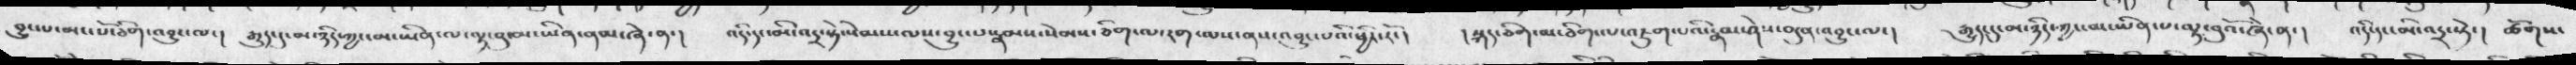བྱུང་པ་མང་པོ་ཐིག་འབྱུང་ལ་།   རྒྱུད་དུ་མ་ཉིད་ཀྱང་མ་ཡིན་ལ་ལྟ་བུ་བས་ཡིན་ནམ་ཞེ་ན་།  འདི་དང་མི་འདྲ་སྟེ་སེམས་ལས་བྱུང་པ་རྣམས་སེམས་ཅིག་ལ་རག་ལས་ནས་འབྱུང་པའི་ཕྱིར་རོ་།   ། སྐད་ཅིག་མ་ཅིག་ལ་འཇུག་པའི་རྣམ་ཤེས་བདུན་འབྱུང་ལ་།    རྒྱུད་དུ་མ་ཉིད་ཀྱང་མ་ཡིན་པ་ལྟ་བུའོ་ཞེ་ན་།   འདི་དང་མི་འདྲ་སྟེ་།   ཚོགས་
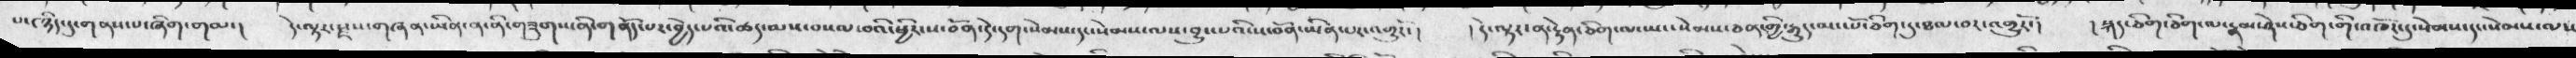པད་ཉིད་དུ་གན་པ་ཞིག་གམ་།   དེ་ལྟར་སྫས་གཞན་ཡིན་ན་ནི་གཟུགས་ནི་གནོད་པར་བྱེད་པའི་ཚད་མས་བསམ་བའི་ཕྱིར་ས་བོན་དེ་དག་སེམས་དང་སེམས་ལས་བྱུང་པའི་ས་བོན་ཡིན་པར་འགྱུར་རོ་།   ། དེ་ལྟར་ན་རྟེན་ཅིག་ལ་ཡང་སེམས་ཅན་གྱི་རྒྱུད་མང་པོ་ཅིག་དུ་ཐལ་བར་འགྱུར་རོ་།   ། སྐད་ཅིག་ཅིག་ལ་རྣམ་ཤེས་ཅིག་གི་འཁོར་དུ་སེམས་དང་སེམས་ལས
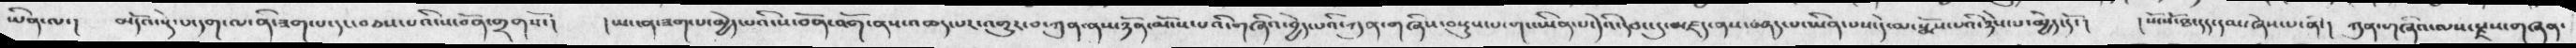ཡིན་ལ་།   མདོ་ཾའ་སྡེ་པ་དག་ལ་ནི་ཟག་པ་དང་བཅས་པའི་ས་བོན་གྲགསོ་།   ། ཡང་ན་ཟག་པ་མྱེད་པའི་ས་བོན་འགོ་ནས་འཆད་པར་འགྱུར་བ་ཀུན་ནས་ཉོན་མོངས་པའི་གཞིའ་བྱེད་པའི་ཀུན་གཞིས་བསྡུས་པ་གང་ཡིན་པ་དེའི་དབང་དུ་མཛད་ནས་བཤད་པ་ཡིན་པས་དེ་མ་སྨོས་པའི་ཉེས་པ་མྱེད་དོ་།   ། སོ་སོ་ཐ་དད་དམ་ཞེས་པ་ནི་།     ཀུན་གཞིའ་ལས་རྫས་གཞན་
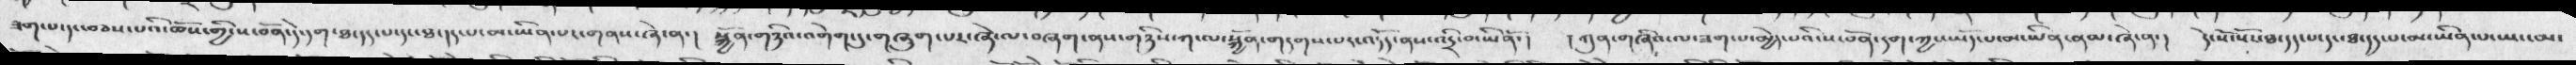ཟག་པ་དང་བཅས་པའི་ཆོས་གྱི་ས་བོན་དེ་དག་ཐ་དད་པ་དང་ཐ་དད་པ་མ་ཡིན་པར་གནས་ཞེས་ན་།   སྐྱོན་གཉིའ་འགེག་དུ་གཞུག་པར་ཞེ་ལ་བཞག་ནས་གཉིས་ཀ་ལ་སྐྱོན་གདགས་པར་འདོད་ནས་འདྲི་བ་ཡིན་ནོ་།   ། ཀུན་གཞིའ་ལ་ཟག་པ་མྱེད་པའི་ས་བོན་དག་ཀྱང་ཡོད་པ་མ་ཡིན་ནམ་ཞེ་ན་།    དེ་སོ་སོར་ཐ་དད་པ་དང་ཐ་དད་པ་མ་ཡིན་པ་ཡང་མ་
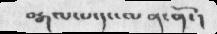བརྒལ་པ་དང་ལན་ནོ་།
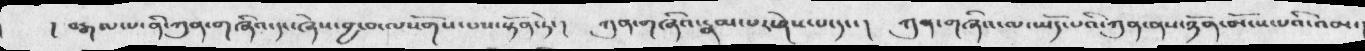།   བརྒལ་པ་ནི་ཀུན་གཞིའ་དང་ཞེས་བྱ་བ་ལསོགས་པས་སྟོན་ཏེ་།   ཀུན་གཞིའ་རྣམ་པར་ཤེས་པ་དང་།  ཀུན་གཞིའ་ལ་ཡོད་པའི་ཀུན་ནས་ཉོན་མོངས་པའི་འམ་།
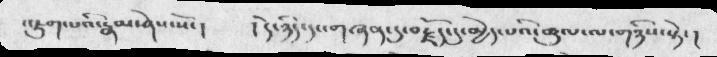འཇུག་པའི་རྣམ་ཤེས་སོ་ །    ། དེ་ཉིད་དུ་གཞན་དུ་བརྗོད་དུ་མྱེད་པའི་ཚུལ་ལ་གཉིས་སྟེ་ །
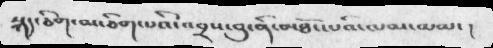སྐད་ཅིག་མ་ཅིག་པའི་འབྲས་བུ་ནི་མཐོང་པའི་ལམ་མམ་ །
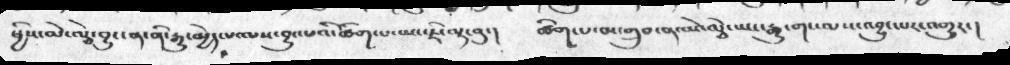ཕྱིས་མེ་ལྕེ་བྱུང་ན་ནི་རྒྱུ་མྱེད་པ་ལས་བྱུང་པའི་ཚིག་པ་ཡང་ཇི་ལྟ་བུ་།     ཚིག་པ་མ་གྲུབ་ན་མེ་ལྕེ་ཡང་རྒྱུ་གང་ལས་འབྱུང་པར་འགྱུར་།
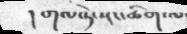།གལ་ཏེ་སྔར་ཆིག་ལ་
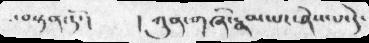་བསྟན་ཏོ་།  ། ཀུན་གཞི་རྣམ་པར་ཤེས་པ་དེ་
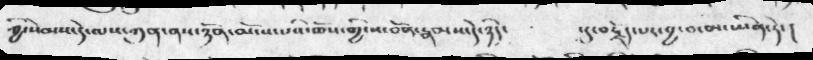ཀྱི་སེམས་དེ་ལས་ཀུན་ནས་ཉོན་མོངས་པའི་ཆོས་གྱི་ས་བོན་རྣམས་དེ་ཉིད་  ་དུ་བརྗེད་པར་བ་མ་ཡིན་ཏེ་།
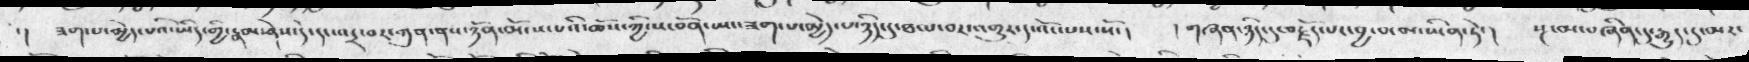་།  ཟག་པ་མྱེད་པའི་ཡིད་གྱི་རྣམ་ཤེས་དེ་དང་འདྲ་བར་ཀུན་ནས་ཉོན་མོངས་པའི་ཆོས་ཀྱི་ས་བོན་ཡང་ཟག་པ་མྱེད་པ་ཉིད་དུ་ཐལ་བར་འགྱུར་དུ་འོང་པས་སོ་།    །གཞན་ཉིད་དུ་བརྗོད་པར་བྱ་བ་མ་ཡིན་ཏེ་།  སྔ་མ་བཞིན་དུ་རྒྱུད་དུ་མར་
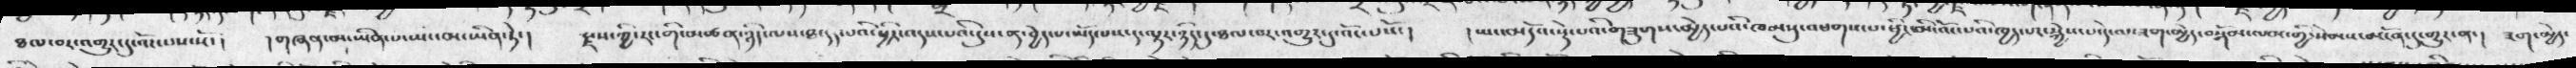ཐལ་བར་འགྱུར་དུ་འོང་པས་སོ་།  །གཞན་མ་ཡིན་པ་ཡང་མཡིན་ཏེ་།   རྫས་ཀྱི་རང་གི་མཚན་ཉིད་ལས་ཐ་དད་པའི་དུས་ན་བྱེད་པ་ཡོད་པས་ད་ལྟར་ཉིད་དུ་ཐལ་བར་འགྱུར་དུ་འོང་པསོ་།   །ཡང་མདོའ་སྡེ་པའི་གཟུགས་མྱེད་པའི་ཁམསུ་འཕགས་པ་ཕྱིར་མི་འོང་པའི་ཁྱད་པར་སྐྱེས་པ་དེ་ལ་ཟག་མྱེད་བསྒོམ་ལམ་གྱི་སེམས་མངོན་དུ་གྱུར་ན་།  ཟག་མྱེད་
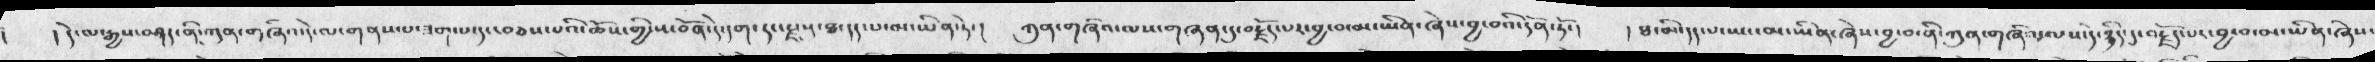།དེ་ལ་རྒྱས་བཤད་ནི་ཀུན་གཞིའ་དེ་ལ་གནས་པ་ཟག་པ་དང་བཅས་པའི་ཆོས་གྱི་ས་བོན་དེ་དག་དང་རྫསུ་ཐ་དད་པ་མ་ཡིན་ཏེ་།   ཀུན་གཞིའ་ལས་གཞན་དུ་བརྗོད་པར་བྱ་བ་མ་ཡིན་ཞེས་བྱ་བའི་དོན་ཏོ་།   །ཐ་་མི་དད་པ་ཡང་མ་ཡིན་ཞེས་བྱ་བ་ནི་ཀུན་གཞི་ལས་དེ་ཉིད་དུ་བརྗོད་པར་བྱ་བ་མ་ཡིན་ཞེས་
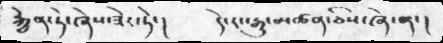རྐྱེན་ཏེ་ཞེས་ཟེར་ཏེ་།  དེ་རང་རྒྱུ་མཚན་ཅིས་ཞེ་ན་།
